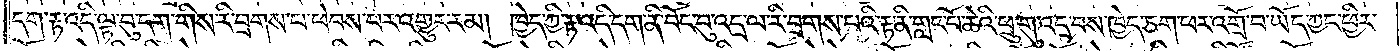དག་རྟ་འདི་ལྟ་བུ་དག་གིས་རི་བྲགས་པ་ཕེབས་པར་འགྱུར་རམ། ཁྱེད་ཀྱི་རྟ་འདི་དག་ནི་བོང་བུ་འདྲ་ལ་རི་བྲགས་པའི་རྟ་ནི་གླང་པོ་ཆེའི་ཕྲུ་གུ་འདྲ་བས་ཁྱེད་ཅག་ཕར་འགྲོ་བ་ཡོད་ཀྱང་ཕྱིར་
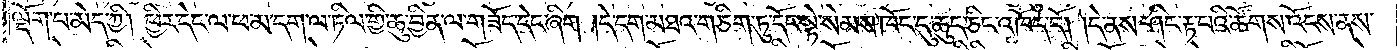ལྡོག་པ་མེད་ཀྱི། ཕྱིར་དེང་ལ་ཕ་མ་དག་ལ་ཏིལ་གྱི་ཆུ་བྱིན་ལ་གཟོད་དེང་ཞིག །དེ་དག་མཐའ་གཅིག་ཏུ་དོང་སྟེ་སེམས་ཁོང་དུ་ཆུད་ཅིང་འཁོད་དོ། །དེ་ནས་ཤིང་རྟ་པའི་ཚོགས་འོངས་ནས་
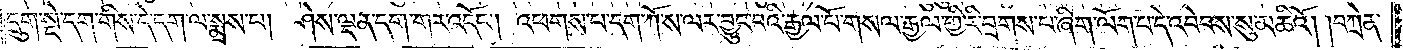དྲུག་སྡེ་དག་གིས་དེ་དག་ལ་སྨྲས་པ། ཤེས་ལྡན་དག་གར་འདོང༌། འཕགས་པ་དག་ཀོ་ས་ལར་བྱུང་བའི་རྒྱལ་པོ་གསལ་རྒྱལ་གྱི་རི་བྲགས་པ་ཞིག་ལོག་པ་དེ་འབེབས་སུ་མཆིའོ། །བཀྲེན་
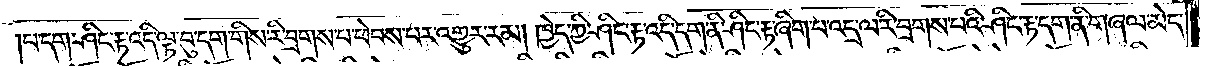པ་དག་ཤིང་རྟ་འདི་ལྟ་བུ་དག་གིས་རི་བྲགས་པ་ཕེབས་པར་འགྱུར་རམ། ཁྱེད་ཀྱི་ཤིང་རྟ་འདི་དག་ནི་ཤིང་རྟ་ཞིག་པ་འདྲ་ལ་རི་བྲགས་པའི་ཤིང་རྟ་དག་ནི་གཞལ་མེད་
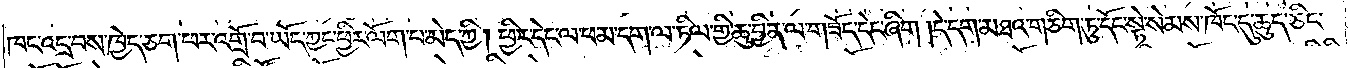ཁང་འདྲ་བས་ཁྱེད་ཅག་ཕར་འགྲོ་བ་ཡོད་ཀྱང་ཕྱིར་ལོག་པ་མེད་ཀྱི། ཕྱིར་དེང་ལ་ཕ་མ་དག་ལ་ཏིལ་གྱི་ཆུ་བྱིན་ལ་གཟོད་དེང་ཞིག །དེ་དག་མཐའ་གཅིག་ཏུ་དོང་སྟེ་སེམས་ཁོང་དུ་ཆུད་ཅིང་
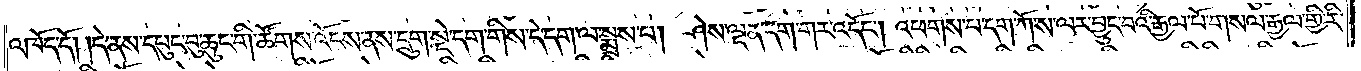འཁོད་དོ། །དེ་ནས་དཔུང་བུ་ཆུང་གི་ཚོགས་འོངས་ནས་དྲུག་སྡེ་དག་གིས་དེ་དག་ལ་སྨྲས་པ། ཤེས་ལྡན་དག་གར་འདོང༌། འཕགས་པ་དག་ཀོ་ས་ལར་བྱུང་བའི་རྒྱལ་པོ་གསལ་རྒྱལ་གྱི་རི་
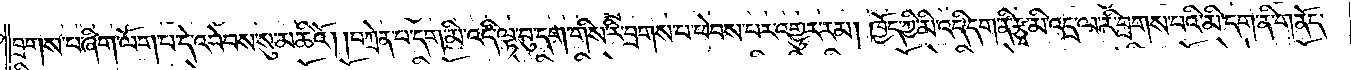བྲགས་པ་ཞིག་ལོག་པ་དེ་འབེབས་སུ་མཆིའོ། །བཀྲེན་པ་དག་མི་འདི་ལྟ་བུ་དག་གིས་རི་བྲགས་པ་ཕེབས་པར་འགྱུར་རམ། ཁྱོད་ཀྱི་མི་འདི་དག་ནི་རྩྭ་མི་འདྲ་ལ་རི་བྲགས་པའི་མི་དག་ནི་གནོད་
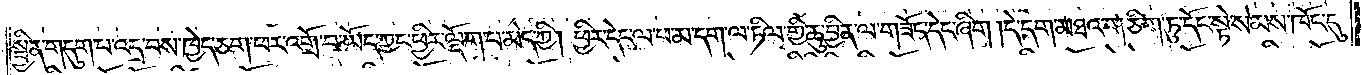སྦྱིན་གདུག་པ་འདྲ་བས་ཁྱེད་ཅག་ཕར་འགྲོ་བ་ཡོད་ཀྱང་ཕྱིར་ལྡོག་པ་མེད་ཀྱི། ཕྱིར་དེང་ལ་ཕ་མ་དག་ལ་ཏིལ་གྱི་ཆུ་བྱིན་ལ་གཟོད་དེང་ཞིག །དེ་དག་མཐའ་གཅིག་ཏུ་དོང་སྟེ་སེམས་ཁོང་དུ་
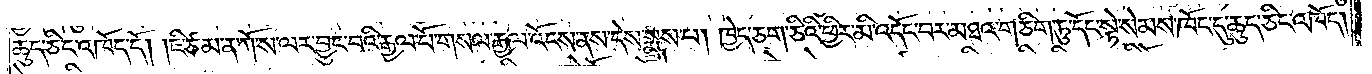ཆུད་ཅིང་འཁོད་དོ། །ཇི་ཙམ་ན་ཀོ་ས་ལར་བྱུང་བའི་རྒྱལ་པོ་གསལ་རྒྱལ་འོངས་ནས་དེས་སྨྲས་པ། ཁྱེད་ཅག་ཅིའི་ཕྱིར་མི་འདོང་བར་མཐའ་གཅིག་ཏུ་དོང་སྟེ་སེམས་ཁོང་དུ་ཆུད་ཅིང་འཁོད།
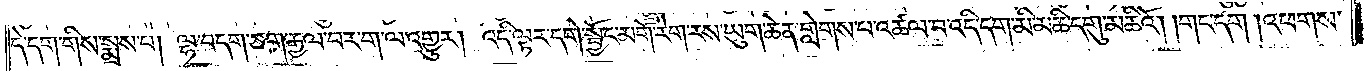དེ་དག་གིས་སྨྲས་པ། ལྷ་བདག་ཅག་རྒྱལ་བར་ག་ལ་འགྱུར། འདི་ལྟར་དགེ་སྦྱོང་མགོ་རེག་རས་ཡུག་ཆེན་གླེགས་པ་འཚལ་བ་འདི་དག་མི་མཆི་དགུ་མཆིའོ། །གང་དག །འཕགས་
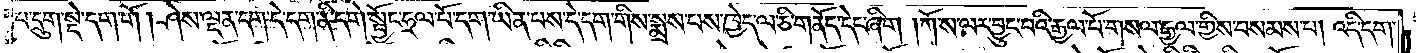པ་དྲུག་སྡེ་དག་གོ། ཤེས་ལྡན་དག་དེ་དག་ནི་དགེ་སྦྱོང་ཧྲལ་པོ་དག་ཡིན་པས་དེ་དག་གིས་སྨྲས་པས་ཁྱེད་ལ་ཅི་གནོད་དེང་ཞིག །ཀོ་ས་ལར་བྱུང་བའི་རྒྱལ་པོ་གསལ་རྒྱལ་གྱིས་བསམས་པ། འདི་དག་
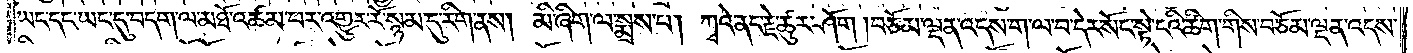ཡང་དང་ཡང་དུ་བདག་ལ་མཐོ་འཚམ་པར་འགྱུར་རོ་སྙམ་དུ་རིག་ནས། མི་ཞིག་ལ་སྨྲས་པ། ཀྭའེ་ནང་རྗེ་ཚུར་ཤོག །བཅོམ་ལྡན་འདས་ག་ལ་བ་དེར་སོང་སྟེ་ངའི་ཚིག་གིས་བཅོམ་ལྡན་འདས་
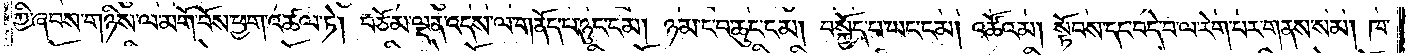ཀྱི་ཞབས་གཉིས་ལ་མགོ་བོས་ཕྱག་འཚལ་ཏེ། བཅོམ་ལྡན་འདས་ལ་གནོད་པ་ཉུང་ངམ། ཉམ་ང་བ་ཆུང་ངམ། བསྐྱོད་པ་ཡང་ངམ། འཚོའམ། སྟོབས་དང་བདེ་བ་ལ་རེག་པར་གནས་སམ། ཁ་
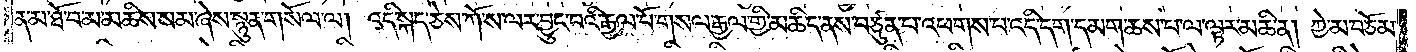ན་མ་ཐོ་བ་མ་མཆིས་སམ་ཞེས་སྙུན་གསོལ་ལ། འདི་སྐད་ཅེས་ཀོ་ས་ལར་བྱུང་བའི་རྒྱལ་པོ་གསལ་རྒྱལ་གྱི་མཆིད་ནས་བཙུན་པ་འཕགས་པ་འདི་དག་དམག་ཆས་པ་ལ་ལྟར་མཆི་ན། ཀྱེ་མ་བཅོམ་
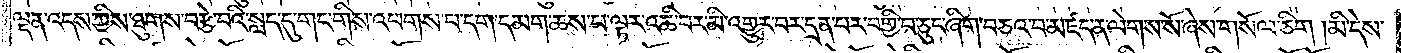ལྡན་འདས་ཀྱིས་ཐུགས་བརྩེ་བའི་སླད་དུ་གང་གིས་འཕགས་པ་དག་དམག་ཆས་པ་ལྟར་འཆི་བར་མི་འགྱུར་བར་དྲན་པར་བགྱི་བ་ཅུང་ཞིག་བཅའ་བ་མཛད་ན་ལེགས་སོ་ཞེས་གསོལ་ཅིག །མི་དེས་
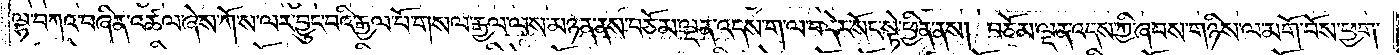ལྷ་བཀའ་བཞིན་འཚལ་ཞེས་ཀོ་ས་ལར་བྱུང་བའི་རྒྱལ་པོ་གསལ་རྒྱལ་ལས་མཉན་ནས་བཅོམ་ལྡན་འདས་ག་ལ་བ་དེར་སོང་སྟེ་ཕྱིན་ནས། བཅོམ་ལྡན་འདས་ཀྱི་ཞབས་གཉིས་ལ་མགོ་བོས་ཕྱག་
